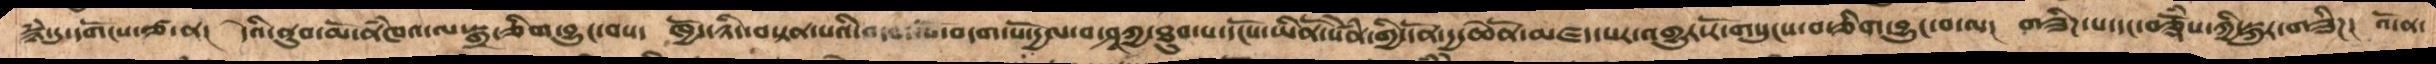སྙཾ་དུ་དགོངས་ཙ་ན།  དེའི་ནུབ་མོ་ནཾཁའ་ལ་སྒྲ་ཅིག་བྱུང་བས།   ཁྱོད་ཉིད་བསྟན་པའི་བདག་པོ་བདག་པོ་རྒྱལ་བ་ཤཱཀྱ་ཐུབ་པ་དངོས་ཡིནོ་སེནཾ་གྱི་དོན་དྱ་ཆེནོ་མཛད་པར་འགྱུར་རོ་གསུངས་བ་ཅིག་བྱུང་བ་ལ། གཟིཌ་པ་དང་བཅྡོྃས་ཀྱི་སྐུར་གཟིཌ།  འོ་ན་
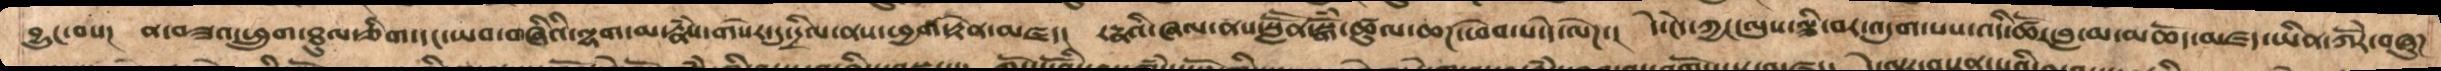བྱུང་བས།  ན་བཟའ་ཕྲུག་ཐུལ་ཅིག་དང་ཡབ་གཞིའི་ལྷག་མ་རྣཾས་གསེར་དུ་དྲིལ་ནས་ཕྱག་རྟེན་མཛད།  རཏྣའི་ཞལ་ནས་སླཽན་སྒོཾ་ཚུལ་ཆཌ་ཕེབས་པ་དེ་ལེཌ།  དེ་ངེད་ཀྱང་ལུས་ལྕི་བར་འདུག་པས་འདི་ཚོར་བླ་མ་མཆོད་མཛད་ཡིན་ཀོརེ་བཞུཌ
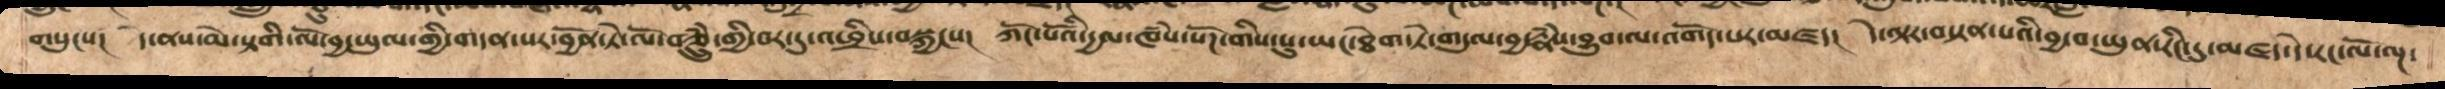གསུངས།  དེ་ནས་མེ་སྟགི་ལོ་བྱ་ཡུལ་གྱི་གདན་སར་བྱོན་ཏེ་ལོ་བཅྲུཾ་གྱི་བར་དུ་འཕྲིས་བསྐྱངས།  ཀོང་པོའི་དྱལ་ཁཾས་སོཌ་གིས་སུ་ཡང་ཐེག་ཏེ་གདུལ་བྱ་རྣཾས་བྱུབ་ལ་འགོད་པར་མཛད།  དེ་ལྟར་བསྟན་པའི་བྱ་བ་ཡུན་རིང་དུ་མཛད་དེ་རང་ལོ་ལྔ་
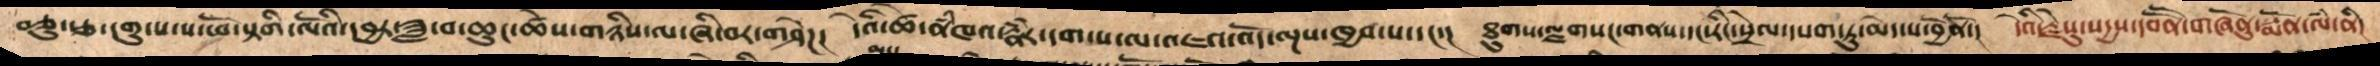བཅུ་རྩ་དགུ་པ་ས་ཕོ་སྟགི་ལོའི་དབྱར་ཟླ་བ་ཆུང་ཚེས་གཉིས་ལ་ཞི་བར་གཤེཌ།   དེའི་ཚེ་ནཾཁའ་རྣཾར་དག་པ་ལ་འཇའ་འོད་ལྔས་ཁྱབ་པ་དང་། ཐུགས་ལྗགསང་གནས་རིང་སྲེལ་དཔག་ཏུ་མེད་པ་བྱོནོ་།   དེའི་རྗེསུ་སདྱས་དབཽན་གཞོནུ་སྨོན་ལཾ་ནི།
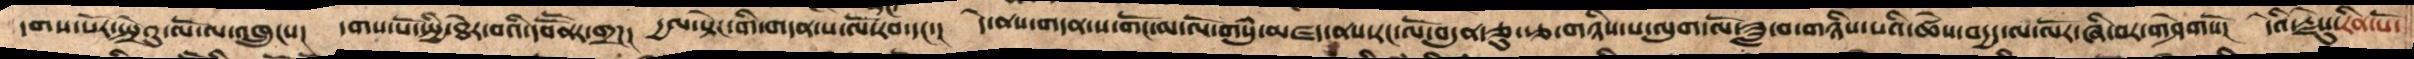དགས་པོར་སྤྲེའུ་ལོ་ལ་འཁྲུངས།  དགས་པོ་སྤྱི་ཐེར་བའི་དབཽནར་གྲཌ།  དྱལ་སྟེང་གི་གདན་ས་ལོ་རབ་དང་།  དེ་ནས་གདན་ས་གོང་མ་ལོ་གསུཾ་མཛད་ནས་རང་ལོ་བདུན་ཅུ་རྩ་གཉིས་པ་ལུག་ལོ་ཟླ་བ་གཉིས་པའི་ཚེས་བདྱད་ལ་ལོར་ཞི་བར་གཤེགསོ།   དེའི་རྗེསུ་རིན་པོ་
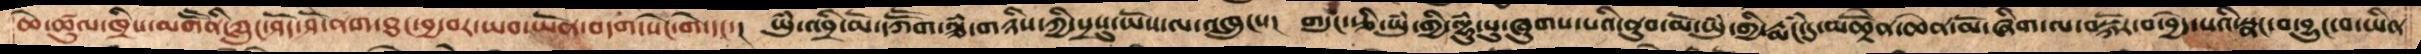ཆེ་ཚུལ་ཁྲིས་མགཽན་ཀླུང་ཤོད་ཤོ་ནག་ཐང་བྱ་བར་ཡབ་ཡོན་བདག་སེང་གེ་དང།།  ཡུཾ་འབྲི་མོ་དཀཽག་ལྕཾ་གཉིས་ཀྱི་སྲསུ་ཡོས་ལ་འཁྲུངས།  གདུང་རྩི་ཡུཾ་གྱི་ལྷུཾ་སུ་ཞུགས་པའི་ནུབ་མོ་ཡུཾ་གྱི་རྨངཾ་དུ་མཆྟོེན་ཆེན་མོ་ཞིག་ལ་བསྐོར་བ་བྱེད་པའི་སྣང་བ་བྱུང་བ་ཡིན
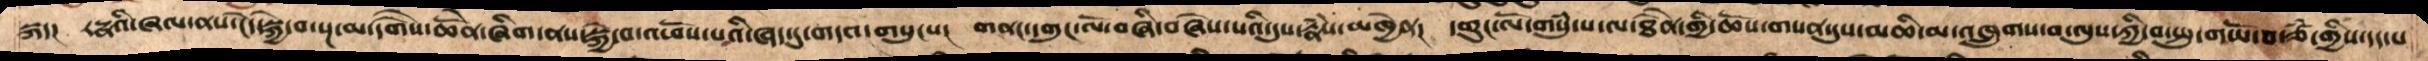སྐད།  རཏྣའི་ཞལ་ནས་ངེད་སྐྱེ་བ་སྔ་མ་དགཻས་ཆེནོ་ཞིག་ནས་སྐྱེ་བ་འཕོས་པའི་ཞད་དུ་གདའ་གསུངས།  གནང་དགུང་ལོ་བཞི་བཞེས་པའི་དུས་རྣཾས་མཁྱེན།  དགུང་ལོ་གསུཾ་པ་ལ་ཐཻན་གྱི་ཆོས་གསན་དུས་མཆི་མ་འཁྲུགས་བ་ལུས་ཀྱི་བ་སྤུ་གཡོ་བ་ཙཾ་གྱིས་དད་པ་
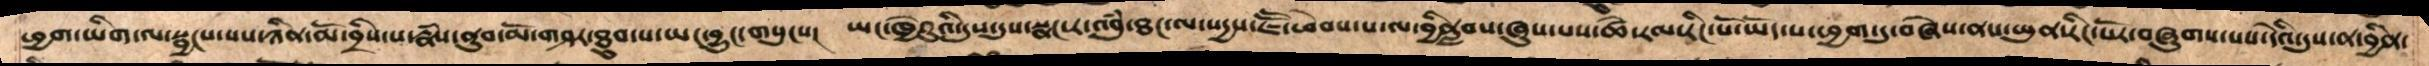ཕྱག་ཡིག་ལ་སྦྱངས་པས་ཉིན་མོ་བྲིས་པ་རྣཾས་ནུབ་མོ་གཤར་ཐུབ་པ་ཡང་བྱུང་གསུངས།  ཡང་ཁྱེའུའི་དུས་དུས་སྣང་ར་འབུཾ་ཐང་ལ་སདྱས་ཇཽ་ཕེབས་པ་ལ་བྱིནླབས་ཞུས་པས་ཚེ་རམ་རིང་པོ་ཕྱག་དུ་བཞེས་ནས་ཡུན་རིང་པོར་བཞུགས་པས་དེའི་དུས་ན་བྱིན་
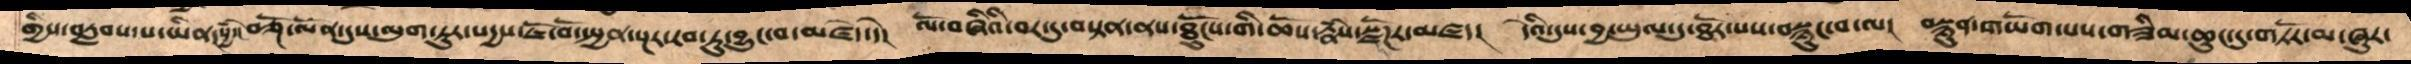གྱིས་བརླབས་པ་ཡིན་སྱཾ་།བཅྔོ་ལོན་དུས་ལུག་ཏུར་སདྱས་ཇོ་བོ་སྤྱན་སྔར་རབ་ཏུ་བྱུང་བ་མཛད་དེ།  ལོ་བཞིའི་བར་དུ་བསྟན་ནས་ཐོུངས་གི་ཆོས་རྣཾས་སྫོཌར་མཛད།  དེ་དུས་བྱ་ཡུལ་དུ་ཐོར་པས་བསྙུང་བ་ལ།  བསྙུན་གཡོག་པས་གཟིམ་ཆུང་དུ་གཏོར་མ་ཞུར་
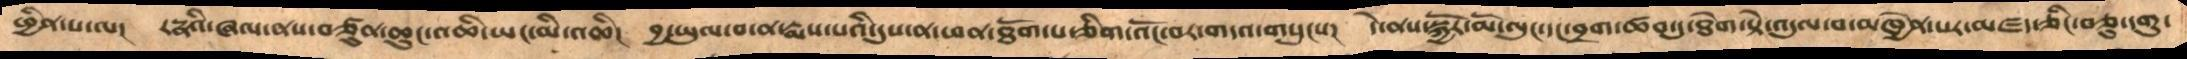ཕྱིན་པ་ལ།  རཏྣའི་ཞལ་ནས་བཙུན་ཆུང་འཆི་ཡང་མི་འཆི།  བྱ་ཡུལ་བ་ན་རྨས་པའི་དུས་ན་ཕན་ཐོག་པ་ཅིག་འོང་བར་གདའ་གསུངས།  དེ་ནས་སྐྱོར་མོ་ལུང་དང་བྲག་ཚབ་དུ་ཐེག་སྟེ་འདུལ་བ་མཁྱེན་པར་མཛད་ཅིང་བཅུ་དགུ་
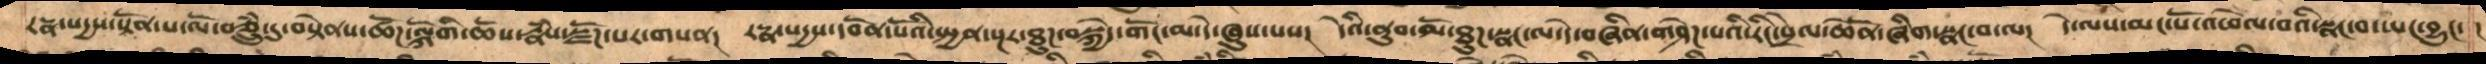རཏྣ་སདྱས་སྟོན་པ་ལོ་བཅྲུཾ་དུ་བསྟེནས་ཚོཌ་ལྐོགི་ཆོས་རྣཾས་སྫོཌ་པར་གསན།  རཏྣ་སདྱས་དབོན་པོའི་སྤྱན་སྔར་ཐུཌ་བསྐྱེད་གོང་མ་དེ་ཞུས་པས།  དེའི་ནུབ་མོ་ཐུཌ་སྣང་ལ་དེ་བཞིན་གཤེཌ་པའི་རིང་སྲེལ་ཆེནོ་ཞིག་སྣང་བ་ལ།  དེ་ལས་མང་པོ་འཕེལ་བའི་སྣང་བ་ཡང་བྱུང་ །
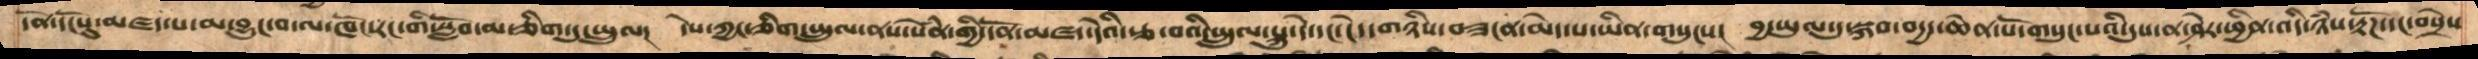དོན་དངོསུ་མཛད་པ་མ་བྱུང་བ་ལ་ཁོང་རང་གི་སློབ་མ་ཅིག་དུ་སྤྲུལ།  དེས་ཀྱང་ཅིག་སྤྲུལ་ནས་སེནཾ་གྱི་དོན་མཛད་དེའི་རྩ་བའི་སྤྲུལ་སྐུ་དེ་དང་ངེ་དགཉིས་བཟངན་མེད་པ་ཡིན་གསུངས།  བྱ་ཡུལ་དུ་སྐབ་བདྱད་ཆེན་པོ་གསུང་པའི་དུས་ན་ཤེར་ཕྱིན་འདི་ཉཾས་རྟོཌ་དང་བསྲེས་
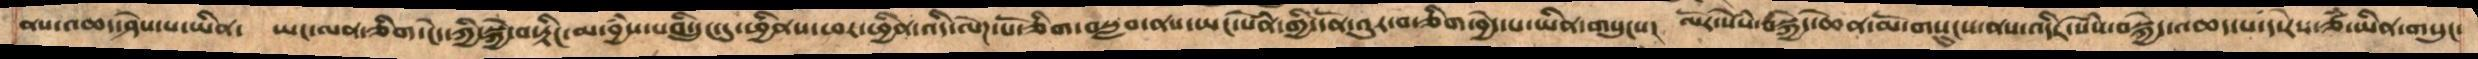ནས་འཆད་ཤེས་པ་ཡིན་  ཡང་ལན་ཅིག་ངེད་ཀྱི་སྐྱེ་བ་རྟིང་མ་བྱཾས་པའི་དྲུང་དུ་ཕྱིནས་ཕར་ཕྱིན་འདི་ལེཌ་པོ་ཅིག་བསླབ་ནས་ཡང་སེནཾ་གྱི་དོན་འུར་བ་ཅིག་བྱེད་པ་ཡིན་གསུངས།  ལོར་སེསཾ་བསྐྱེད་ཆེན་མོ་གསུངས་ནས་འདིར་སེསཾ་བསྐྱེད་འཆད་པ་ད་རེས་ཙཾ་ཡིན་གསུང་
